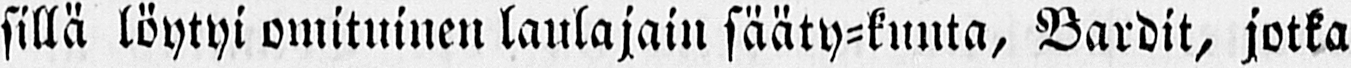sillä löytyi omituinen laulajain sääty-kunta. Bardit, jotka
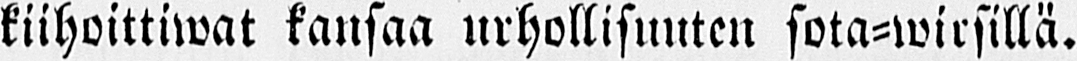kiihoittiwat kansaa urhollisuuten sota-wirsillä.
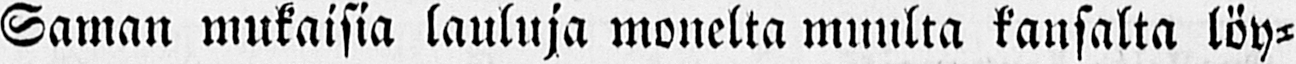Saman mukaisia lauluja monelta muulta kansalta löy-
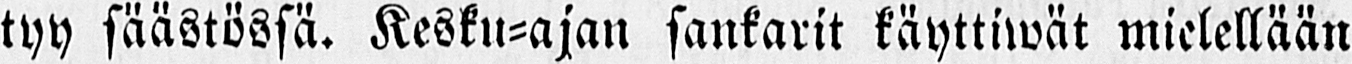tyy säästössä. Kesku-ajan sankarit käyttiwät mielellään
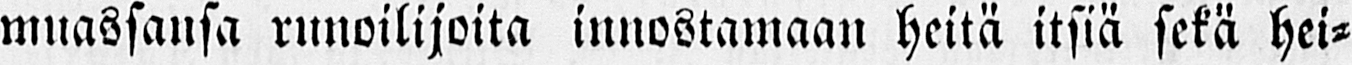muassansa runoilijoita innostamaan heitä itsiä sekä hei-
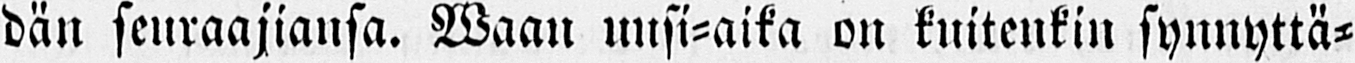dän seuraajiansa. Waan uusi-aika on kuitenkin synnyttä-
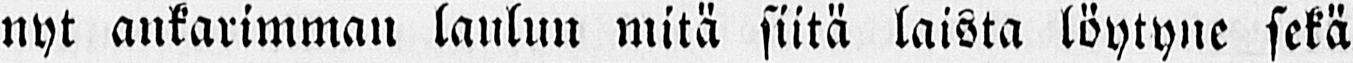nyt ankarimman laulun mitä siitä laista löytyne sekä
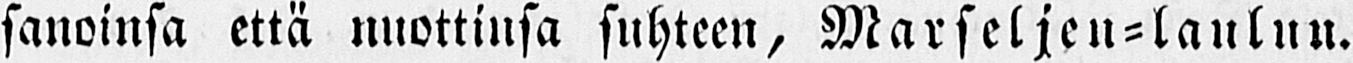sanoinsa että nuottinsa suhteen, Marseljen-laulun.
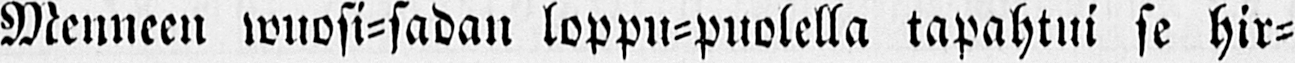Menneen wuosi-sadan loppu-puolella tapahtui se hir-
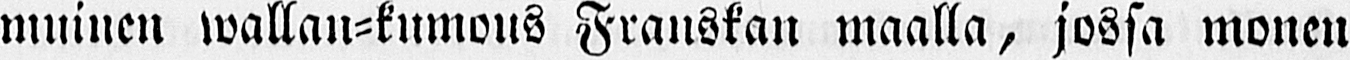muinen wallan-kumous Franskan maalla, jossa monen
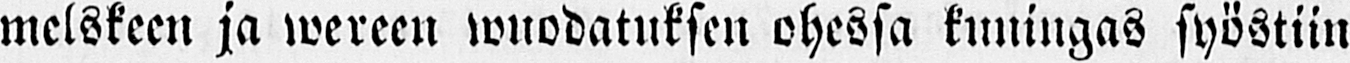melskeen ja wereen wuodatuksen ohessa kuningas syöstiin
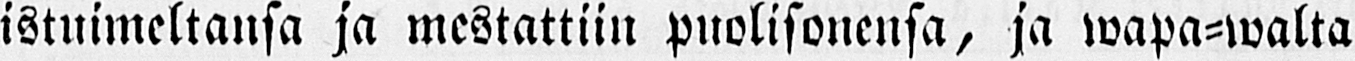istuimeltansa ja mestattiin puolisonensa, ja wapa-walta
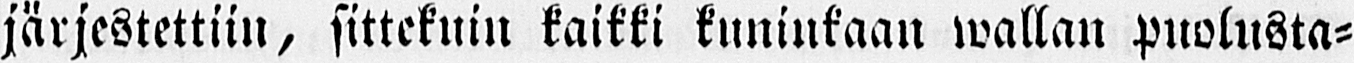järjestettiin, sittekuin kaikki kuninkaan wallan puolusta-
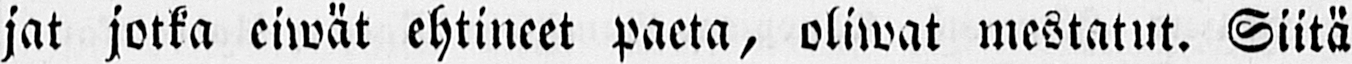jat jotka eiwät ehtineet paeta, oliwat mestatut. Siitä
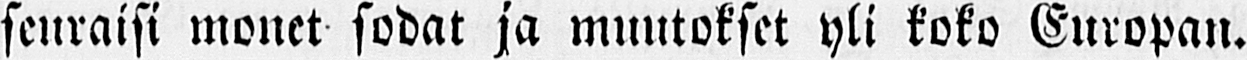seuraisi monet sodat ja muutokset yli koko Europan.
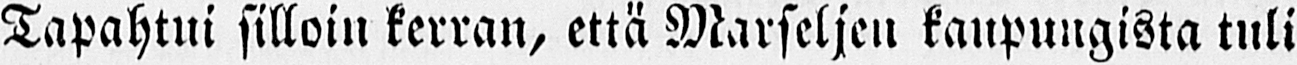Tapahtui silloin kerran, että Marseljen kaupungista tuli
